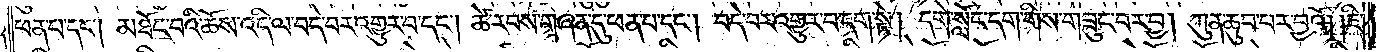ཕན་པ་དང༌། མཐོང་བའི་ཆོས་འདི་ལ་བདེ་བར་འགྱུར་བ་དང༌། ཚེ་རབས་གཞན་དུ་ཕན་པ་དང༌། བདེ་བར་འགྱུར་བ་དག་སྟེ། དགེ་སློང་དག་གིས་གཟུང་བར་བྱ། ཀུན་ཆུབ་པར་བྱའོ། །ཇི་
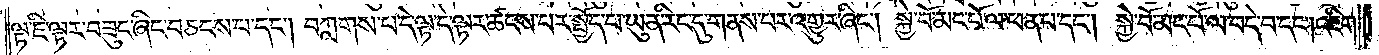ལྟ་ཇི་ལྟར་བཟུང་ཞིང་བཅངས་པ་དང༌། བཀླགས་པ་དེ་ལྟ་དེ་ལྟར་ཚངས་པར་སྤྱོད་པ་ཡུན་རིང་དུ་གནས་པར་འགྱུར་ཞིང༌། སྐྱེ་བོ་མང་པོ་ལ་ཕན་པ་དང༌། སྐྱེ་བོ་མང་པོ་ལ་བདེ་བ་དང༌། འཇིག་
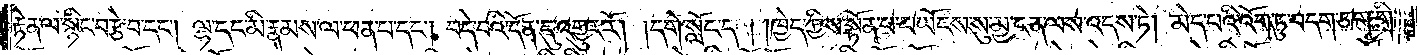རྟེན་ལ་སྙིང་བརྩེ་བ་དང༌། ལྷ་དང་མི་རྣམས་ལ་ཕན་པ་དང༌། བདེ་བའི་དོན་དུ་འགྱུར་རོ། །དགེ་སློང་དག །ཁྱེད་ཀྱིས་སྟོན་པ་ང་ཡོངས་སུ་མྱ་ངན་ལས་འདས་ཏེ། མེད་པའི་འོག་ཏུ་བདག་ཅག་གི་
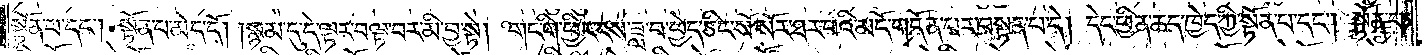སྟོན་པ་དང༌། སྟོན་པ་མེད་དོ། །སྙམ་དུ་དེ་ལྟར་བལྟ་བར་མི་བྱ་སྟེ། གང་གི་ཕྱིར་ངས་ཟླ་བ་ཕྱེད་ཅིང་སོ་སོར་ཐར་པའི་མདོ་གདོན་པར་བསྟན་པ་དེ། དེང་ཕྱིན་ཆད་ཁྱེད་ཀྱི་སྟོན་པ་དང༌། སྟོན་པ་
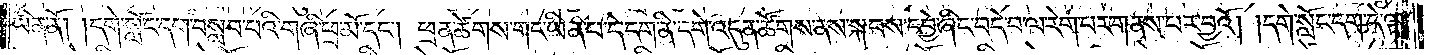ཡིན་ནོ། །དགེ་སློང་དག་བསླབ་པའི་གཞི་ཕྲ་མོ་དང༌། ཕྲན་ཚེགས་གང་ཡིན་པ་དེ་དག་ནི་དགེ་འདུན་ཚོགས་ནས་སྐབས་དབྱེ་ཞིང་བདེ་བ་ལ་རེག་པར་གནས་པར་བྱའོ། །དགེ་སློང་དག་དེ་ལྟ་
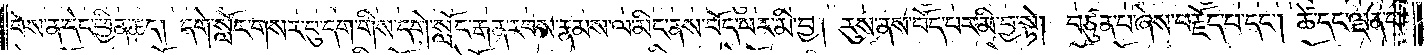བས་ན་དེང་ཕྱིན་ཆད། དགེ་སློང་གསར་བུ་དག་གིས་དགེ་སློང་རྒན་རབས་རྣམས་ལ་མིང་ནས་བོད་པར་མི་བྱ། རུས་ནས་བོད་པར་མི་བྱ་སྟེ། བཙུན་པ་ཞེས་བརྗོད་པ་དང༌། ཚེ་དང་ལྡན་པ་
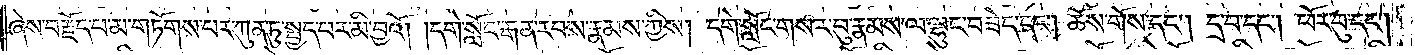ཞེས་བརྗོད་པ་མ་གཏོགས་པར་ཀུན་ཏུ་སྤྱད་པར་མི་བྱའོ། །དགེ་སློང་རྒན་རབས་རྣམས་ཀྱིས། དགེ་སློང་གསར་བུ་རྣམས་ལ་ལྷུང་བཟེད་དང༌། ཆོས་གོས་དང༌། དྲ་བ་དང༌། ཕོར་བུ་དང༌།
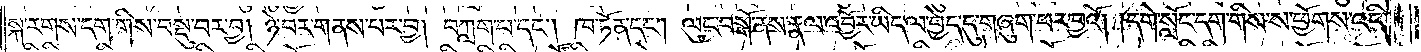སྐ་རགས་དག་གིས་བསྡུ་བར་བྱ། ཉེ་བར་གནས་པར་བྱ། བཀླག་པ་དང༌། ཁ་ཏོན་དང༌། ལུང་བསྒོ་ནས་རྣལ་འབྱོར་ཡིད་ལ་བྱེད་དུ་གཞུག་པར་བྱའོ། །དགེ་སློང་དག་གིས་ས་ཕྱོགས་འདི་
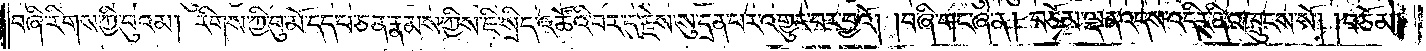བཞི་རིགས་ཀྱི་བུའམ། རིགས་ཀྱི་བུ་མོ་དད་པ་ཅན་རྣམས་ཀྱིས་ཇི་སྲིད་འཚོའི་བར་དུ་རྗེས་སུ་དྲན་པར་འགྱུར་བར་བྱའོ། །བཞི་གང་ཞེ་ན། བཅོམ་ལྡན་འདས་འདིར་ནི་འཁྲུངས་སོ། །བཅོམ་
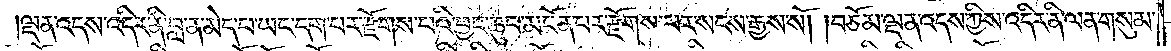ལྡན་འདས་འདིར་ནི་བླ་ན་མེད་པ་ཡང་དག་པར་རྫོགས་པའི་བྱང་ཆུབ་མངོན་པར་རྫོགས་པར་སངས་རྒྱས་སོ། །བཅོམ་ལྡན་འདས་ཀྱིས་འདིར་ནི་ལན་གསུམ་
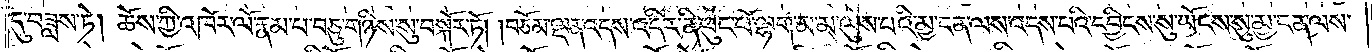དུ་བཟླས་ཏེ། ཆོས་ཀྱི་འཁོར་ལོ་རྣམ་པ་བཅུ་གཉིས་སུ་བསྐོར་ཏོ། །བཅོམ་ལྡན་འདས་འདིར་ནི་ཕུང་པོ་ལྷག་མ་མ་ལུས་པའི་མྱ་ངན་ལས་འདས་པའི་དབྱིངས་སུ་ཡོངས་སུ་མྱ་ངན་ལས་
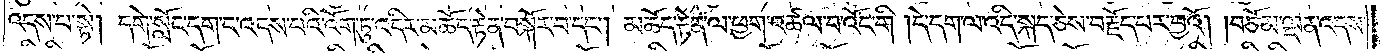འདས་པ་སྟེ། དགེ་སློང་དག་ང་འདས་པའི་འོག་ཏུ་འདིར་མཆོད་རྟེན་བསྐོར་བ་དང༌། མཆོད་རྟེན་ལ་ཕྱག་འཚལ་བ་འོང་གི། དེ་དག་ལ་འདི་སྐད་ཅེས་བརྗོད་པར་བྱའོ། །བཅོམ་ལྡན་འདས་
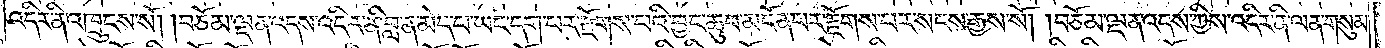འདིར་ནི་འཁྲུངས་སོ། །བཅོམ་ལྡན་འདས་འདིར་ནི་བླ་ན་མེད་པ་ཡང་དག་པར་རྫོགས་པའི་བྱང་ཆུབ་མངོན་པར་རྫོགས་པར་སངས་རྒྱས་སོ། །བཅོམ་ལྡན་འདས་ཀྱིས་འདིར་ནི་ལན་གསུམ་
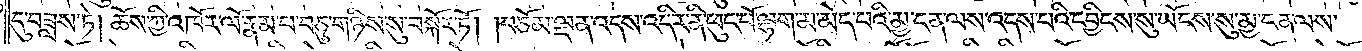དུ་བཟླས་ཏེ། ཆོས་ཀྱི་འཁོར་ལོ་རྣམ་པ་བཅུ་གཉིས་སུ་བསྐོར་ཏོ། །བཅོམ་ལྡན་འདས་འདིར་ནི་ཕུང་པོ་ལྷག་མ་མེད་པའི་མྱ་ངན་ལས་འདས་པའི་དབྱིངས་སུ་ཡོངས་སུ་མྱ་ངན་ལས་
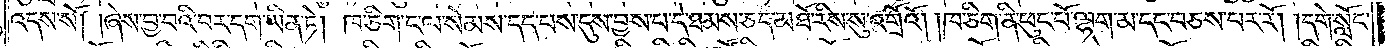འདས་སོ། །ཞེས་བྱ་བའི་བར་དག་ཡིན་ཏེ། ཁ་ཅིག་ང་ལ་སེམས་དད་པས་དུས་བྱས་པ་དེ་ཐམས་ཅད་མཐོ་རིས་སུ་འགྲོའོ། །ཁ་ཅིག་ནི་ཕུང་པོ་ལྷག་མ་དང་བཅས་པར་རོ། །དགེ་སློང་
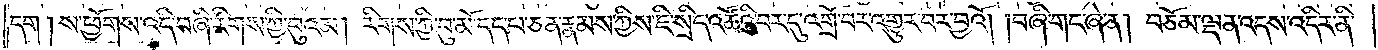དག །ས་ཕྱོགས་འདི་བཞི་རིགས་ཀྱི་བུའམ། རིགས་ཀྱི་བུ་མོ་དད་པ་ཅན་རྣམས་ཀྱིས་ཇི་སྲིད་འཚོའི་བར་དུ་འགྲོ་བར་འགྱུར་བར་བྱའོ། །བཞི་གང་ཞེ་ན། བཅོམ་ལྡན་འདས་འདིར་ནི་
